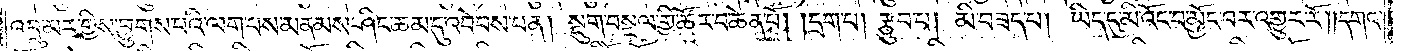འབྲུ་མར་གྱིས་བྱུགས་པའི་ལག་པས་མནམས་ཤིང་ཆམ་དུ་འབེབས་པ་ན། སྡུག་བསྔལ་གྱི་ཚོར་བ་ཆེན་པོ། །དྲག་པ། རྩུབ་པ། མི་བཟད་པ། ཡིད་དུ་མི་འོང་བ་མྱོང་བར་འགྱུར་རོ། །དགའ་
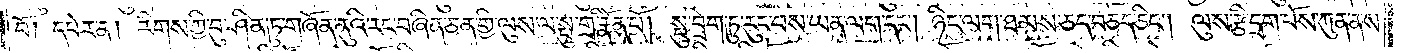བོ། དཔེར་ན། རིགས་ཀྱི་བུ་ཤིན་ཏུ་གཞོན་ནུའི་རང་བཞིན་ཅན་གྱི་ལུས་ལ་སྤུ་གྲི་རྣོན་པོ། སྤུ་བྲེག་ཏུ་རུང་བས་ཡན་ལག་དང༌། ཉིང་ལག་ཐམས་ཅད་བཅད་ཅིང༌། ལུས་རྩི་དྲག་པོས་ཀུན་ནས་
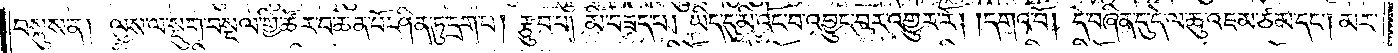བསྐུས་ན། ལུས་ལ་སྡུག་བསྔལ་གྱི་ཚོར་བ་ཆེན་པོ་ཤིན་ཏུ་དྲག་པ། རྩུབ་པ། མི་བཟད་པ། ཡིད་དུ་མི་འོང་བ་འབྱུང་བར་འགྱུར་རོ། །དགའ་བོ། དེ་བཞིན་དུ་དེ་ལ་ཆུ་འཇམ་ཙམ་དང༌། མར་
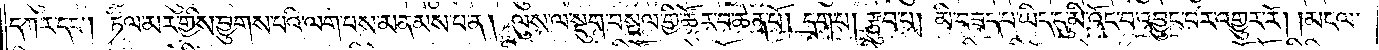དཀར་དང༌། ཏིལ་མར་གྱིས་བྱུགས་པའི་ལག་པས་མནམས་པ་ན། ལུས་ལ་སྡུག་བསྔལ་གྱི་ཚོར་བ་ཆེན་པོ། དྲག་པ། རྩུབ་པ། མི་བཟད་པ་ཡིད་དུ་མི་འོང་བ་འབྱུང་བར་འགྱུར་རོ། །མངལ་
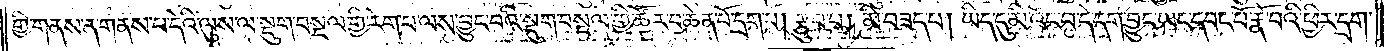གྱི་གནས་ན་གནས་པ་དེའི་ལུས་ལ་སྡུག་བསྔལ་གྱི་རེག་པ་ལས་བྱུང་བའི་སྡུག་བསྔལ་གྱི་ཚོར་བ་ཆེན་པོ་དྲག་པ། རྩུབ་པ། མི་བཟད་པ། ཡིད་དུ་མི་འོང་བ་དེ་དག་བྱུང་ཡང་དབང་པོ་རྣོ་བའི་ཕྱིར་དྲག་
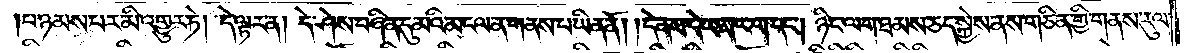པ་ཉམས་པར་མི་འགྱུར་ཏེ། དེ་ལྟར་ན། དེ་ཤེས་བཞིན་དུ་མའི་མངལ་ན་གནས་པ་ཡིན་ནོ། །དེ་ནས་དེ་ཡན་ལག་དང༌། ཉིང་ལག་ཐམས་ཅད་སྐྱེས་ནས་གཅིན་གྱི་གནས་རུལ་
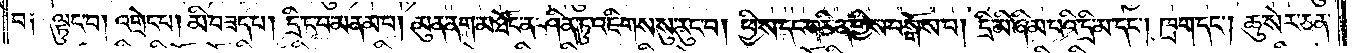བ། ལྟུང་བ། འགྲེང་པ། མི་བཟད་པ། དྲི་ང་བ་མནམ་པ། མུན་ནག་མཐོང་ན་ཤིན་ཏུ་འཇིགས་སུ་རུང་བ། ཕྱི་ས་དང་གཅིན་གྱིས་བསྒོས་པ། དྲི་མི་ཞིམ་པའི་དྲི་མ་དང༌། ཁྲག་དང༌། ཆུ་སེར་ཅན་
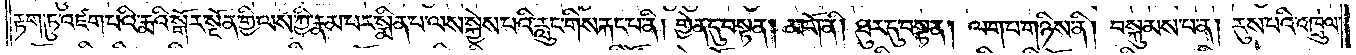རྟག་ཏུ་འཛག་པའི་རྨའི་སྒོར་སྔོན་གྱི་ལས་ཀྱི་རྣམ་པར་སྨིན་པ་ལས་སྐྱེས་པའི་རླུང་གིས་རྐང་པ་ནི། གྱེན་དུ་བསྟན། མགོ་ནི། ཐུར་དུ་བསྟན། ལག་པ་གཉིས་ནི། བསྐུམས་པ་ན། རུས་པའི་འཁྲུལ་
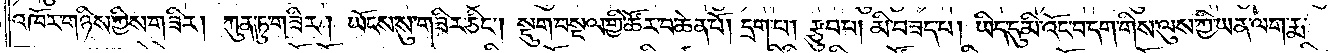འཁོར་གཉིས་ཀྱིས་གཟིར། ཀུན་ཏུ་གཟིར། ཡོངས་སུ་གཟིར་ཅིང༌། སྡུག་བསྔལ་གྱི་ཚོར་བ་ཆེན་པོ། དྲག་པ། རྩུབ་པ། མི་བཟད་པ། ཡིད་དུ་མི་འོང་བ་དག་གིས་ལུས་ཀྱི་ཡན་ལག་རྨ་
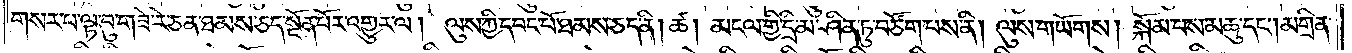གསར་པ་ལྟ་བུ་གཟེ་རེ་ཅན་ཐམས་ཅད་སྔོན་པོར་འགྱུར་ལ། ལུས་ཀྱི་དབང་པོ་ཐམས་ཅད་ནི། ཚ། མངལ་གྱི་དྲི་མ་ཤིན་ཏུ་བཙོག་པས་ནི། ལུས་གཡོགས། སྐོམ་པས་མཆུ་དང༌། མགྲིན་
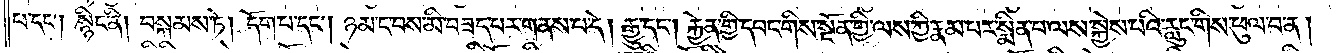པ་དང༌། སྙིང་ནི། བསྐམས་ཏེ། དོག་པ་དང༌། ཉམ་ང་བས་མི་བཟད་པར་གནས་པ་དེ། རྒྱུ་དང༌། རྐྱེན་གྱི་དབང་གིས་སྔོན་གྱི་ལས་ཀྱི་རྣམ་པར་སྨིན་པ་ལས་སྐྱེས་པའི་རླུང་གིས་ཕུལ་བ་ན།
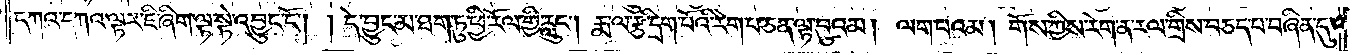དཀའ་དཀའ་ལྟར་ཇི་ཞིག་ལྟ་སྟེ་འབྱུང་ངོ༌། །དེ་བྱུང་མ་ཐག་ཏུ་ཕྱི་རོལ་གྱི་རླུང༌། རྨ་ལ་རྩི་དྲག་པོའི་རེག་པ་ཅན་ལྟ་བུའམ། ལག་པའམ། གོས་ཀྱིས་རེག་ན་རལ་གྲིས་བཅད་པ་བཞིན་དུ་
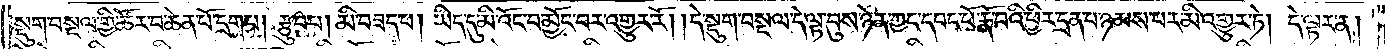སྡུག་བསྔལ་གྱི་ཚོར་བ་ཆེན་པོ་དྲག་པ། རྩུབ་པ། མི་བཟད་པ། ཡིད་དུ་མི་འོང་བ་མྱོང་བར་འགྱུར་རོ། །དེ་སྡུག་བསྔལ་དེ་ལྟ་བུས་ཉེན་ཀྱང་དབང་པོ་རྣོ་བའི་ཕྱིར་དྲན་པ་ཉམས་པར་མི་འགྱུར་ཏེ། དེ་ལྟར་ན།
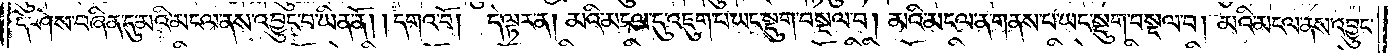དེ་ཤེས་བཞིན་དུ་མའི་མངལ་ནས་འབྱུང་བ་ཡིན་ནོ། །དགའ་བོ། དེ་ལྟར་ན། མའི་མངལ་དུ་འཇུག་པ་ཡང་སྡུག་བསྔལ་བ། མའི་མངལ་ན་གནས་པ་ཡང་སྡུག་བསྔལ་བ། མའི་མངལ་ནས་འབྱུང་
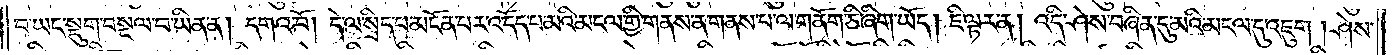བ་ཡང་སྡུག་བསྔལ་བ་ཡིན་ན། དགའ་བོ། དེ་ལ་སྲིད་པ་མངོན་པར་འདོད་པ་མའི་མངལ་གྱི་གནས་ན་གནས་པ་ལ་གནོག་ཅི་ཞིག་ཡོད། ཇི་ལྟར་ན། འདི་ཤེས་བཞིན་དུ་མའི་མངལ་དུ་འཇུག །ཤེས་
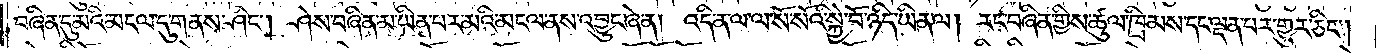བཞིན་དུ་མའི་མངལ་དུ་གནས་ཤིང༌། ཤེས་བཞིན་མ་ཡིན་པར་མའི་མངལ་ནས་འབྱུང་ཞེ་ན། འདི་ན་ལ་ལ་སོ་སོའི་སྐྱེ་བོ་ཉིད་ཡིན་ལ། རང་བཞིན་གྱིས་ཚུལ་ཁྲིམས་དང་ལྡན་པར་གྱུར་ཅིང༌།
